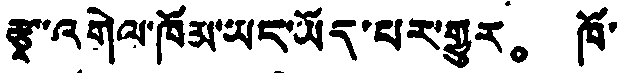རྩྭ་འགེལ་ཁོམ་ཡང་ཡོད་པར་གྱུར。 ཁོ་
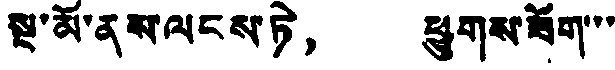སྔ་མོ་ནས་ལངས་ཏེ， ཕྱུགས་ཟོག་་་
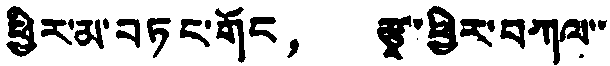ཕྱིར་མ་བཏང་གོང， རྩྭ་ཕྱིར་བཀལ་་
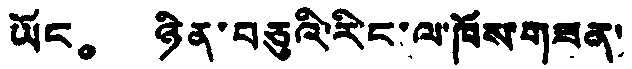ཡོང。 ཉིན་བཅུའི་རིང་ལ་ཁོས་གཟན་
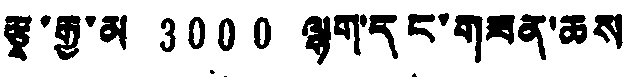རྩྭ་རྒྱ་མ 3000 ལྷག་དང་གཟན་ཆས
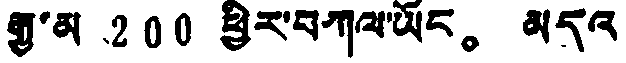རྒྱ་མ 200 ཕྱིར་བཀལ་ཡོང。 མདའ
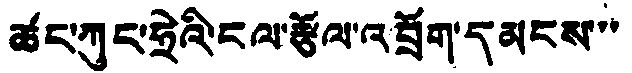ཚང་ཀུང་ཧྲེའི་ངལ་རྩོལ་འབྲོག་དམངས་་་
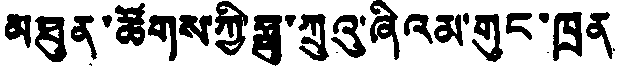མཐུན་ཚོགས་ཀྱི་ཧྥུ་ཀྲུའུ་ཞིའམ་གུང་ཁྲན་
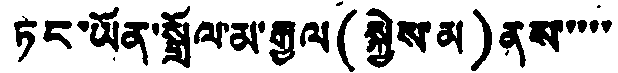ཏང་ཡོན་སྒྲོལ་མ་རྒྱལ (སྐྱེས་མ) ནས་་་་་
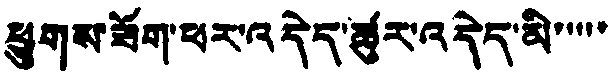ཕྱུགས་ཟོག་ཕར་འདེད་ཚུར་འདེད་མི་་་་་
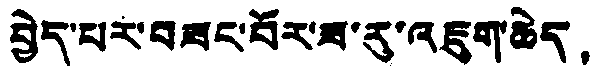བྱེད་པར་བཟང་པོར་ཟ་རུ་འཇུག་ཆེད，
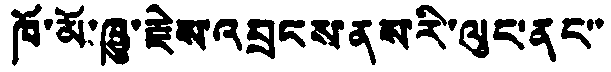ཁོ་མོ་ཁྱུ་རྗེས་འབྲངས་ནས་རི་ལུང་ནང་་
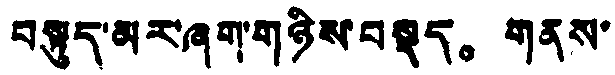བསྟུད་མར་ཞག་གཉིས་བསྡད。 གནས་
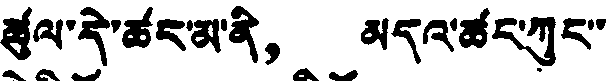ཚུལ་དེ་ཚང་མ་ནི， མདའ་ཚང་ཀུང་་
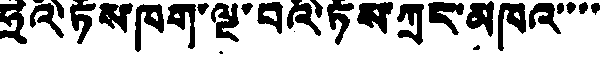ཧྲེའི་ཏོས་ཁག་ལྔ་བའི་ཏོས་ཀྲུང་མཁའ་་་་
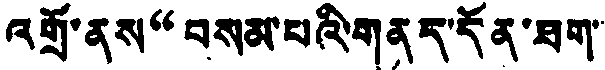འགྲོ་ནས“བསམ་པའི་གནད་དོན་ཐག་་
